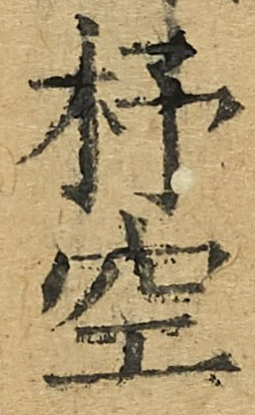杼空
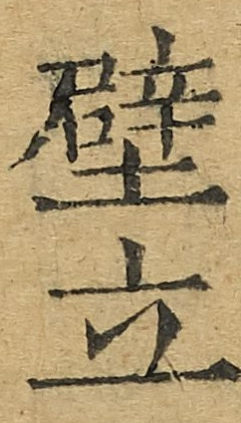壁立
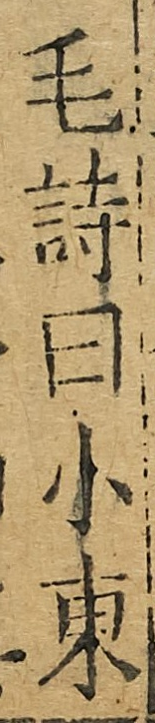毛詩曰小東
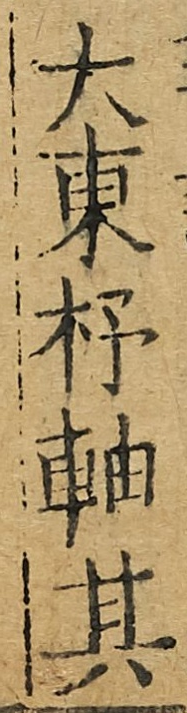大東杼軸其
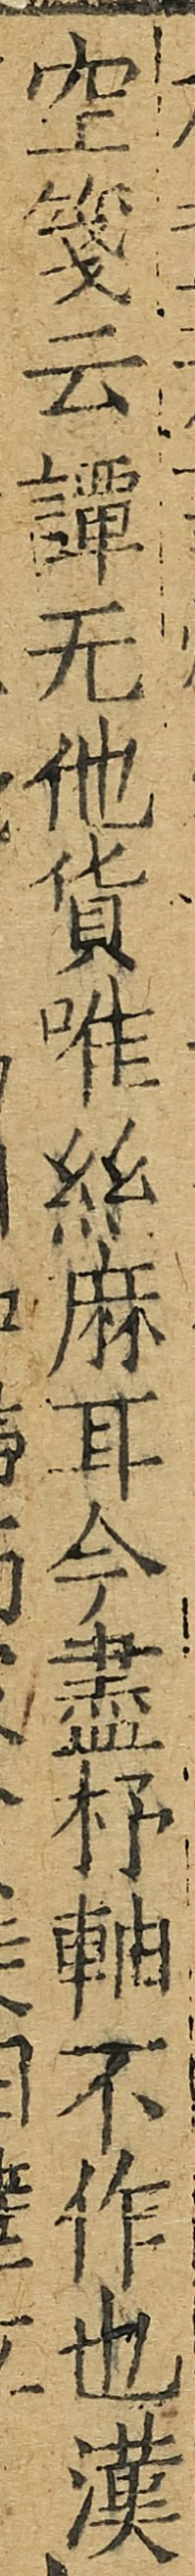空箋云謂無他貨唯絲麻耳今盡杼軸不作也漢
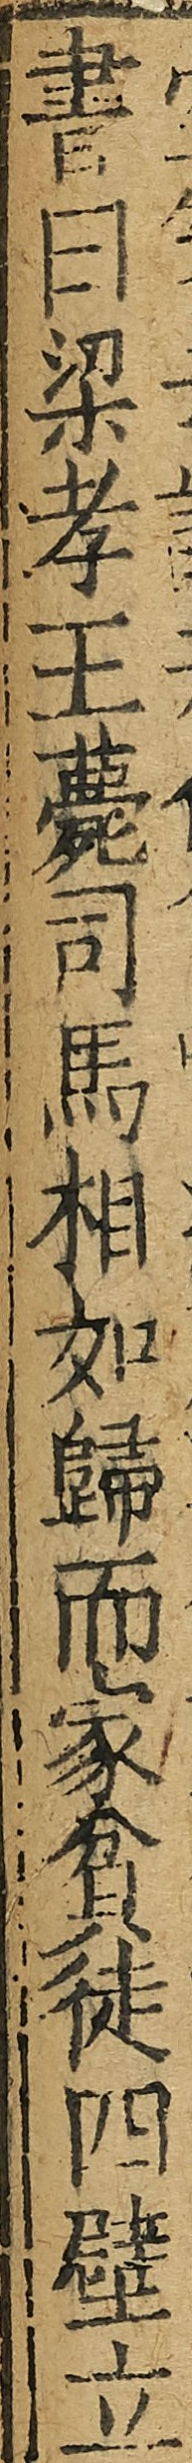書曰梁孝王薨司馬相如歸而家貧徒四壁立
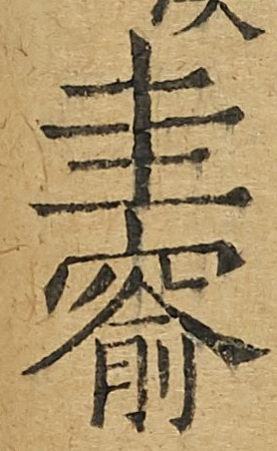圭窬
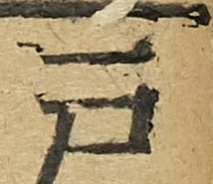戶
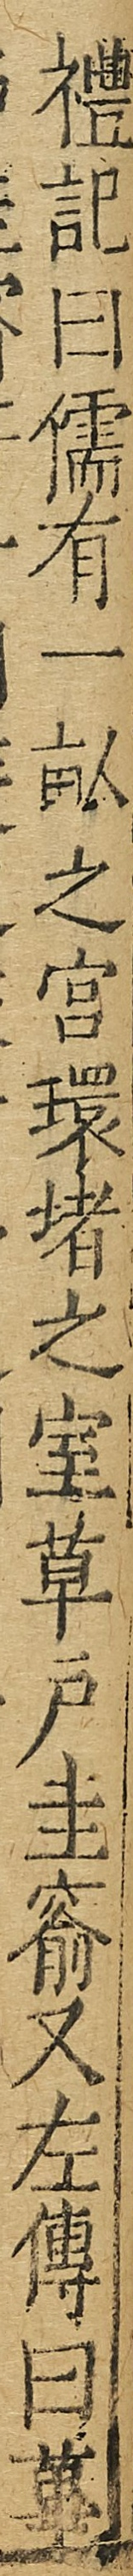禮記曰儒有一畝之宮環堵之室草戶圭窬又左傳曰蓽
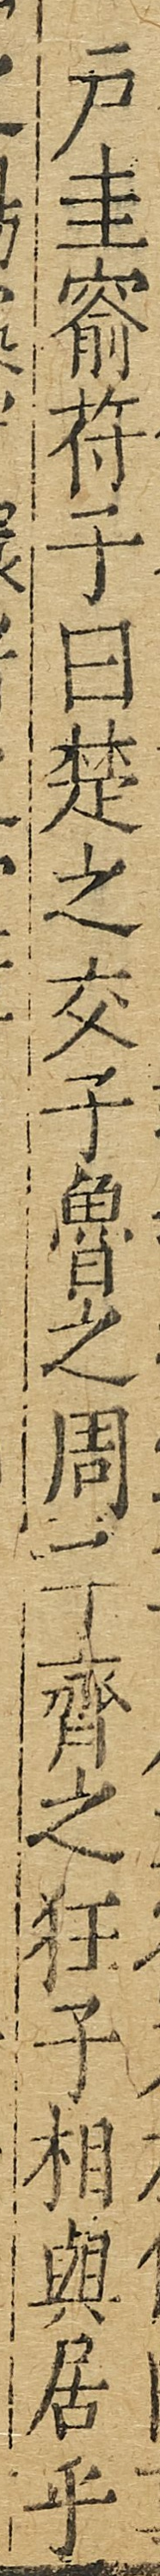戶圭窬符子曰楚之交子魯之周子齊之狂子相與居乎
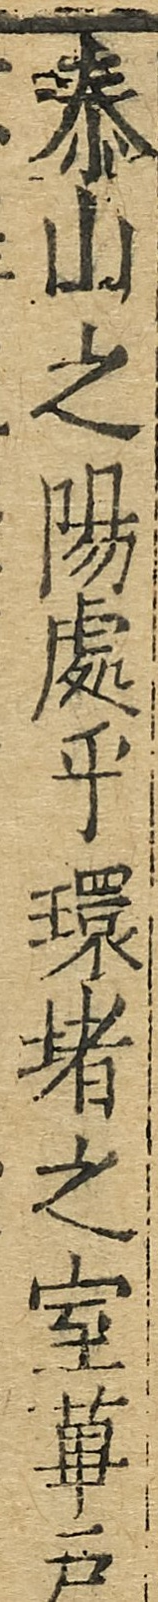泰山之陽處乎環堵之室蓽戶
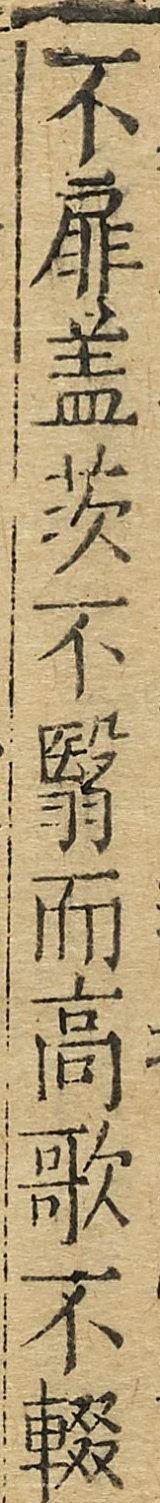不扉蓋茨不翳而高歌不輟
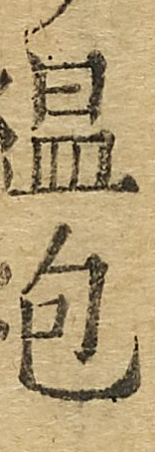緼袍
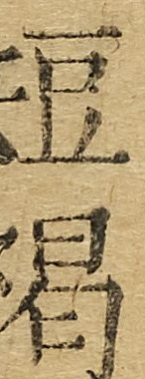短褐
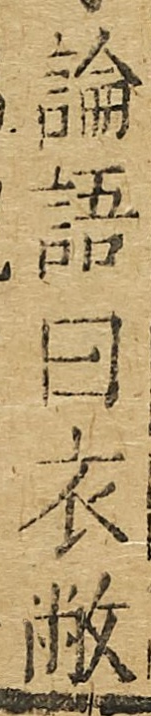論語曰衣敝
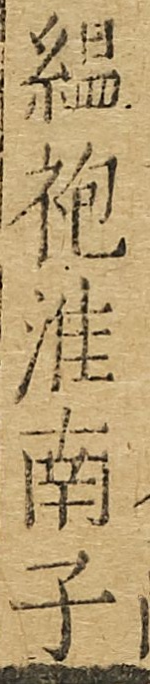緼袍淮南子
